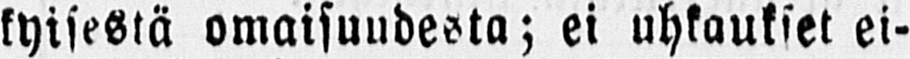kyisestä omaisuudesta; ei uhkaukset ei-
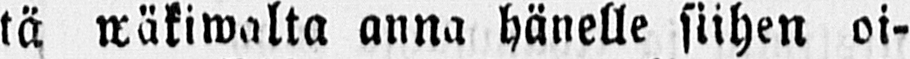tä wäkiwalta anna hänelle siihen oi-
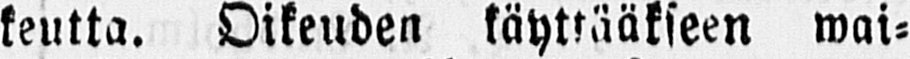keutta. Oikeuden käyttääkseen wai-
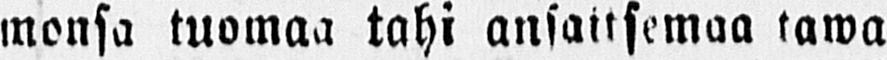monsa tuomaa tahi ansaitsemaa tawa
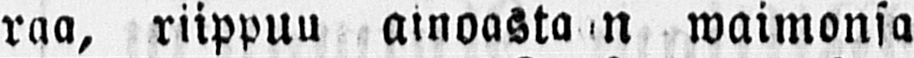raa, riippuu ainoastaan waimonsa
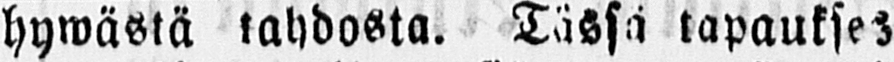hywästä tahdosta. Tässä tapaukses
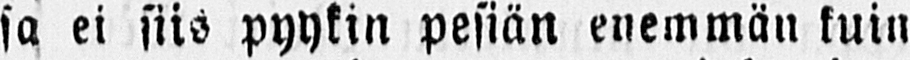sa ei siis pyykin pesiän enemmän kuin
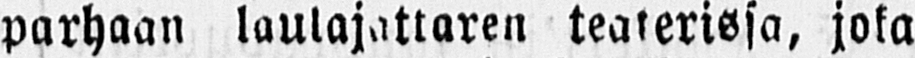parhaan laulajattaren teaterissa, joka
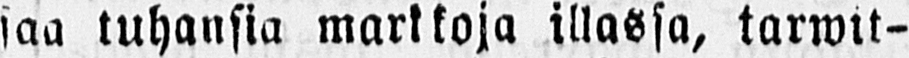saa tuhansia markkoja illassa, tarwit-
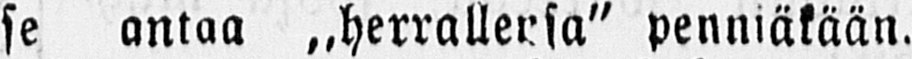se antaa „herrallensa" penniäkään.
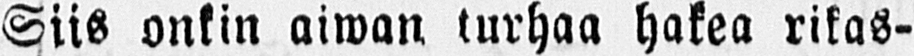Siis onkin aiwan turhaa hakea rikas-
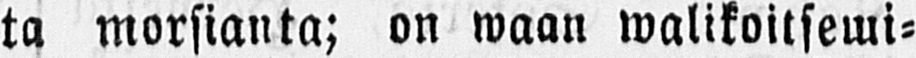ta morsianta; on waan walikoitsemi-
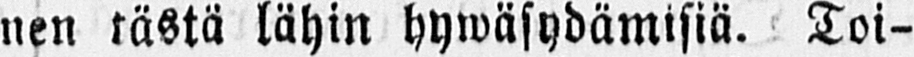nen tästä lähin hywäsydämisiä. Toi-
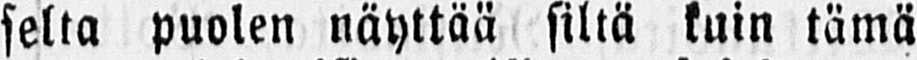selta puolen näyttää siltä kuin tämä
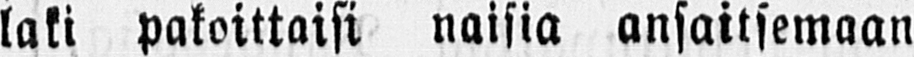laki pakoiltaisi naisia ansaitsemaan
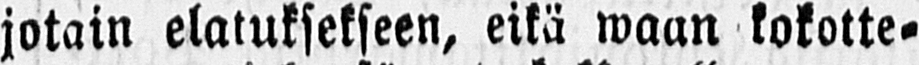jotain elatuksekseen, eikä waan kokotte-
